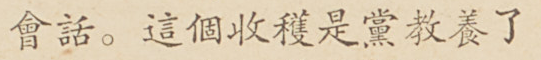會話。這個收穫是黨教養了
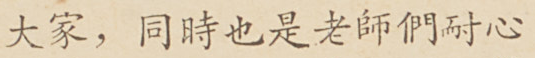大家，同時也是老師們耐心
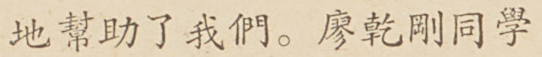地幫助了我們。廖乾剛同學
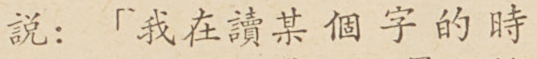說：「我在讀某個字的時
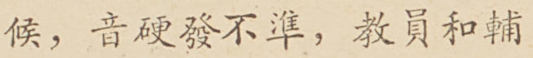候，音硬發不準，教員和輔
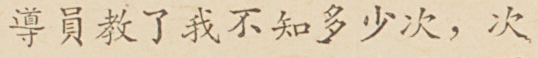導員教了我不知多少次，次
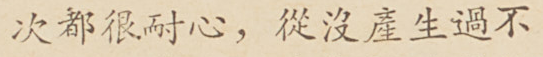次都很耐心，從沒產生過不
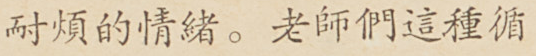耐煩的情緒。老師們這種循
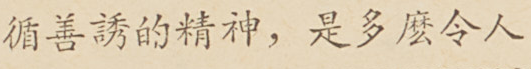循善誘的精神，是多么令人
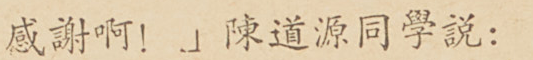感謝阿！」陳道源同學說：
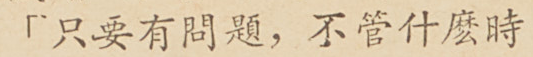「只要有問題，不管什麼時
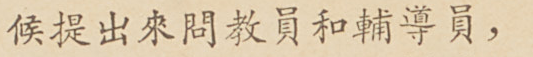候提出來問教員和輔導員，
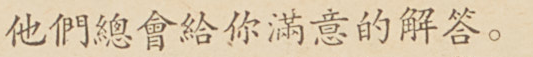他們總會給你滿意的解答。
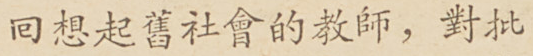囘想起舊社會的教師，對批
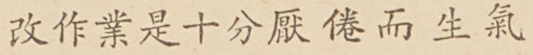改作業是十分厭倦而生氣
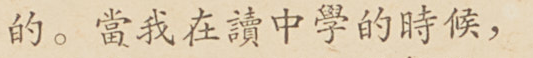的。當我在讀中學的時候，
